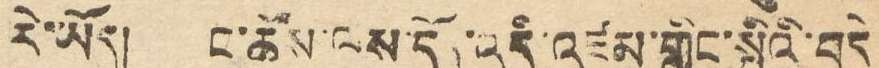རེ་ཡོད། ང་ཚོས་ལས་དོན་འདི་འཛམ་གློང་སྤྱིའི་བདེ
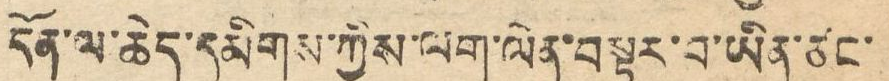དོན་ལ་ཆེད་དམིགས་ཀྱིས་ལག་ལེན་བསྟར་བ་ཡིན་ཙང་
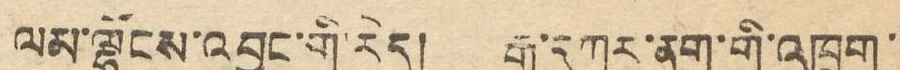ལམ་ལྷོངས་འབྱུང་གི་རེད། རྒྱ་དཀར་ནག་གི་འཁྲུག་
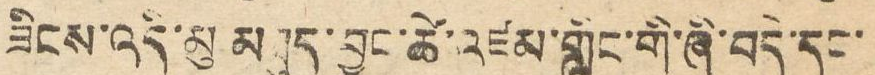ཟིངས་འདི་མུ མཐུད་བྱུང་ཚེ་འཛམ་གླིང་གི་ཞི་བདེ་དང་
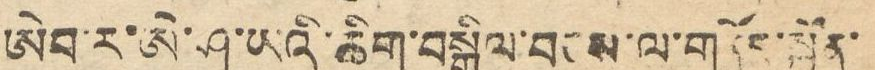ཨེབ་ར་ཨེ་ཤ་ཡའི་ཆིག་བསྒྲིལ་བཅས་གནོད་སྐྱོན་
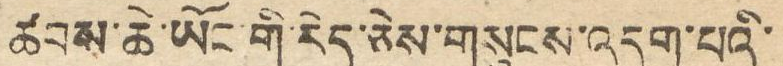ཚབས་ཆེ་ཡོང་གི་རེད་ཅེས་གསུངས་འདུག་པའི་
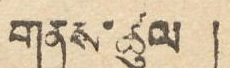གནས་ཚུལ །
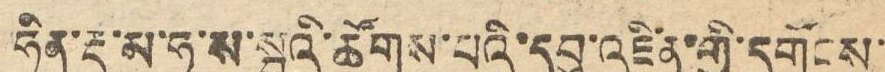ཧིན་རྡུ་མ་ཧ་ས་སྦའི་ཚོགས་པའི་དབུ་འཛིན་གྱི་དགོངས་
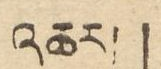འཆར། །
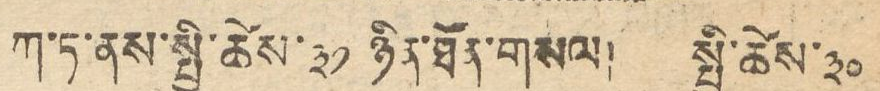ཀ་ཏ་ནས་སྤྱི་ཚེས་༣༡ ཉིན་ཐོན་གསལ། སྤྱི་ཚེས་ ༣༠
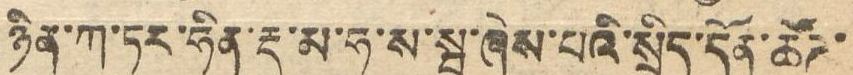ཉིན་ཀ་ཏར་ཧིན་རྡུ་མ་ཧ་ས་སྦ་ཞེས་པའི་སྲིད་དོན་ཚོཊ་
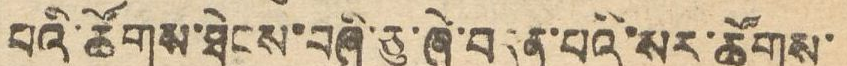པའི་ཚོགས་ཐེངས་བཞི་ཅུ་ཞེ་བདུན་པའི་སར་ཚོགས་
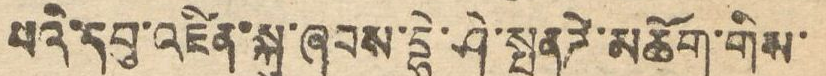པའི་དབུ་འཛིན་སྐུ་ཞབས་དྷེ་ཤེ་སྤན ཌེ་མཆོག་གིས་
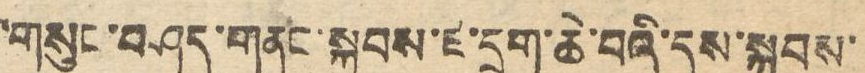གསུང་བཤད་གནང་སྐབས་ཛ་དྲག་ཆེ་བའི་དུས་སྐབས་
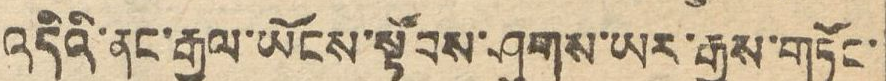འདིའི་ནང་རྒྱལ་ཡོངས་སྟོབས་ཤུགས་ཡར་རྒྱས་གཏོང་
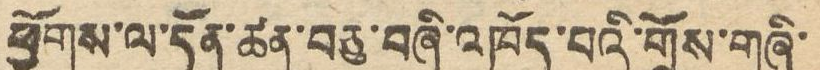ཕྱོགས་ལ་དོན་ཚང་བཅུ་བཞི་འཁོད་པའི་གྲོས་གཞི་
